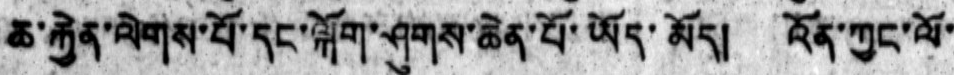ཆ་རྐྱེན་ལེགས་པོ་དང་ལྐོག་ཤུགས་ཆེན་པོ་ཡོད་མོད། འོན་ཀྱང་ལོ་
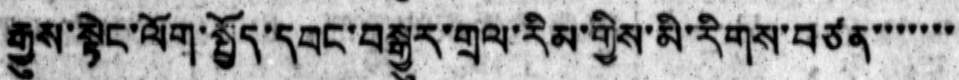རྒྱུས་སྟེང་ལོག་སྤྱོད་དབང་བསྒྱུར་གྲལ་རིམ་གྱིས་མི་རིགས་བཙན་་་་་་་
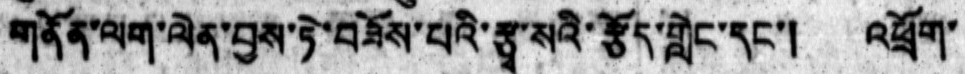གནོན་ལག་ལེན་བྱས་ཏེ་བཟོས་པའི་རྩྭ་སའི་རྩོད་གླེང་དང་། འཕྲོག་
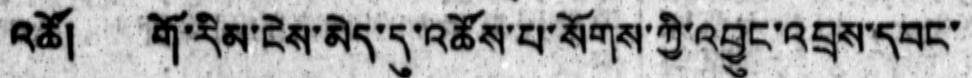འཚོ། གོ་རིམ་ངེས་མེད་དུ་འཚོས་པ་སོགས་ཀྱི་འབྱུང་འབྲས་དབང་
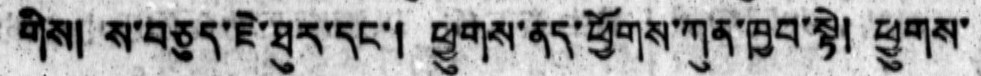གིས། ས་བཅུད་ཇེ་ཐུར་དང་། ཕྱུགས་ནད་ཕྱོགས་ཀུན་ཁྱབ་སྟེ། ཕྱུགས་
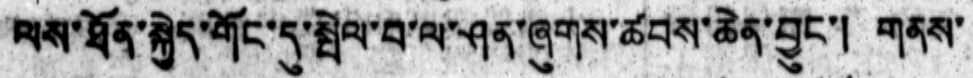ལས་ཐོན་སྐྱེད་གོང་དུ་སྤེལ་བ་ལ་ཤན་ཞུགས་ཚབས་ཆེན་བྱུང་། གནས་
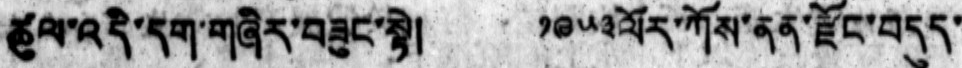ཚུལ་འདི་དག་གཞིར་བཟུང་སྟེ།  ༡༩༥༣ལོར་ཀོས་ནན་རྫོང་བདུད་
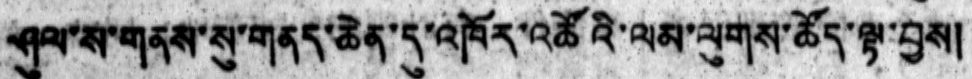ཤུལ་ས་གནས་སུ་གནད་ཆེན་དུ་འཁོར་འཚོའི་ལམ་ལུགས་ཚོད་ལྟ་བྱས།
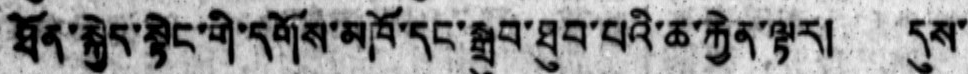ཐོན་སྐྱེད་སྟེང་གི་དགོས་མཁོ་དང་སྒྲུབ་ཐུབ་པའི་ཆ་རྐྱེན་ལྟར། དུས་
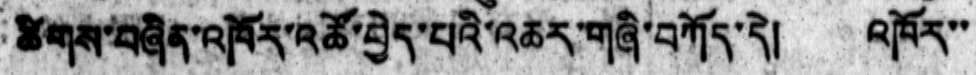ཚིགས་བཞིན་འཁོར་འཚོ་བྱེད་པའི་འཆར་གཞི་བཀོད་དེ། འཁོར་་
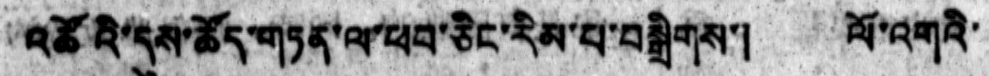འཚོའི་དུས་ཚོད་གཏན་ལ་ཕབ་ཅིང་རིམ་པ་བསྒྲིགས་། ལོ་འགའི་
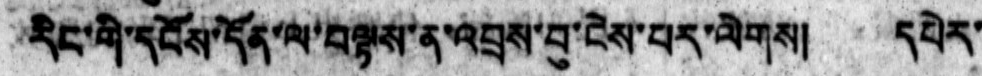རིང་གི་དངོས་དོན་ལ་བལྟས་ན་འབྲས་བུ་ངེས་པར་ལེགས། དཔེར་
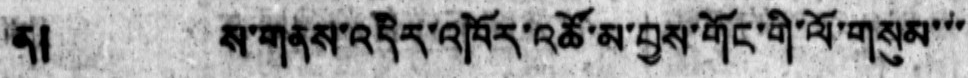ན།   ས་གནས་འདིར་འཁོར་འཚོ་མ་བྱས་གོང་གི་ལོ་གསུམ་་་
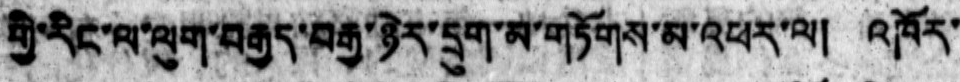གྱི་རིང་ལ་ལུག་བརྒྱད་བརྒྱ་ཉེར་དྲུག་མ་གཏོགས་མ་འཕར་ལ།  འཁོར་
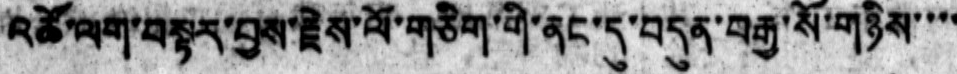འཚོ་ལག་བསྟར་བྱས་རྗེས་ལོ་གཅིག་གི་ནང་དུ་བདུན་བརྒྱ་སོ་གཉིས་་་་
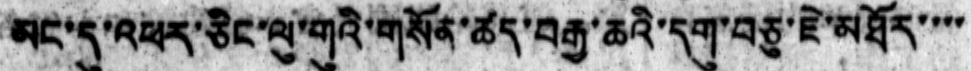མང་དུ་འཕར་ཅིང་ལུ་གུའི་གསོན་ཚད་བརྒྱ་ཆའི་དགུ་བཅུ་ཇེ་མཐོར་་་་
